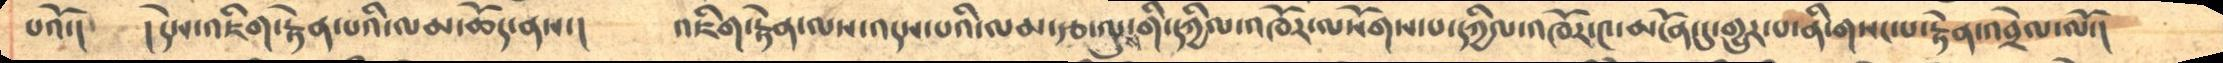པའོ་།   །དེས་འཇིག་རྟེན་པའི་ལམ་ཆོད་ནས་།    འཇིག་རྟེན་ལས་འདས་པའི་ལམ་རྩ་ལུས་གི་དཀྱིལ་འཁོར་ལ་སོགས་པ་དཀྱིལ་འཁོར་༤་མངོན་དུ་གྱུར་པ་ནི་གསང་པ་རྟེན་འབྲེལ་ལོ་།
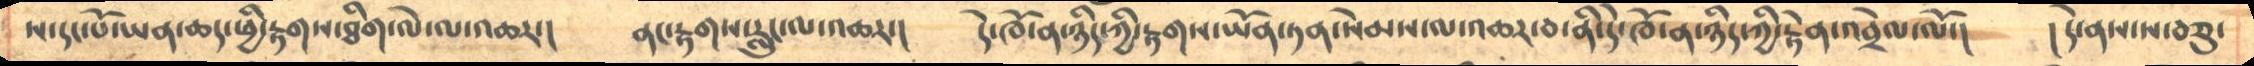ས་དང་པོ་ཡན་ཆད་ཕྱི་རྟགས་ཐིག་ལེ་མ་འཆར་།    ནང་རྟགས་རླུང་ལ་འཆར་།    དེ་ཁོ་ན་ཉིད་ཀྱི་རྟགས་ཡོན་ཏན་སེམས་ལ་འཆར་བ་ནི་དེ་ཁོ་ན་ཉིད་ཀྱི་རྟེན་འབྲེལ་ལོ་།   ། དེ་ནས་ས་བཅུ་
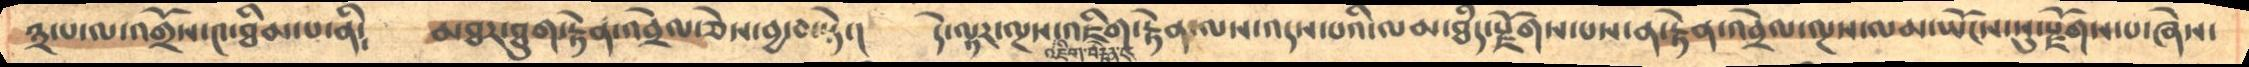༣་པ་ལ་འགྲོས་༤་ཐིམ་པ་ནི༴    མཐར་ཐུག་རྟེན་འབྲེལ་ཅེས་བྱ་བ་སྟེ་།    དེ་ལྟར་ལྔས་འཇིག་རྟེན་དང་འཇིག་རྟེན་ལས་འདས་པའི་ལམ་ཐཾད་རྫོགས་པས་ན་རྟེན་འབྲེལ་ལྔས་ལམ་ཡོངས་སུ་རྫོགས་པ་ཞེས་
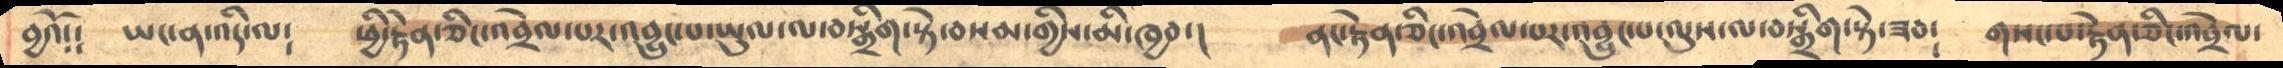བྱའོ༴༴    ཡང་ན་འདི་ལ༴   ཕྱི་རྟེན་ཅིང་འབྲེལ་པརའབྱུང་པ་ཡུལ་ལ་བསྒྲིག་སྟེ་བསམ་གྱིས་མི་ཁྱབ་།    ནང་རྟེན་ཅིང་འབྲེལ་པར་འབྱུང་པ་ལུས་ལ་བསྒྲིག་སྟེ་ཟབ༴   གསང་པ་རྟེན་ཅིང་འབྲེལ་
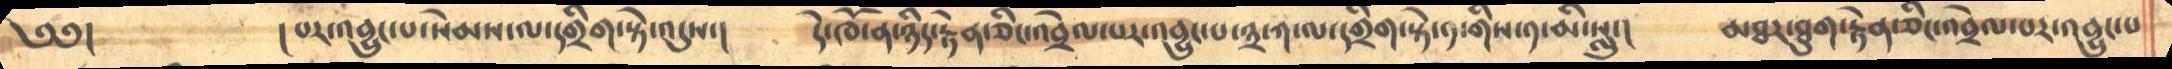༄༅།       །པར་འབྱུང་པ་སེམས་ལ་དགྲིག་སྟེ་འདུས་།    དེ་ཁོ་ན་ཉིད་རྟེན་ཅིང་འབྲེལ་པར་འབྱུང་པ་༣་ཀ་ལ་དགྲིག་སྟེ་༡་གིས་༡་མི་སླུ་།    མཐར་ཐུག་རྟེན་ཅིང་འབྲེལ་པརའབྱུང་པ
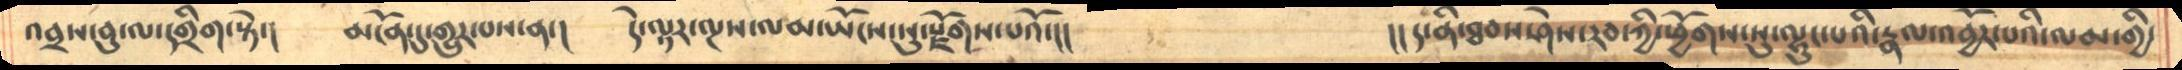འབྲས་བུ་ལ་དགྲིག་སྟེ་།   མངོན་དུ་གྱུར་པས་ན་།    དེ་ལྟར་ལྔས་ལམ་ཡོངས་སུ་སྫོགས་པའོ་།།            །།ད་ནི་ཐབས་ཤེས་རབ་ཀྱི་ཕྱོགས་སུ་ལྷུང་པའི་རྣལ་འབྱོར་པའི་ལམ་གྱི་
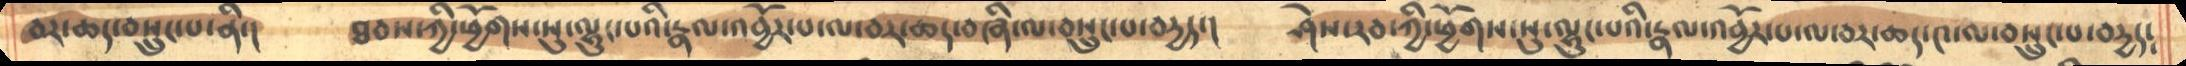བར་ཆད་བསྲུང་པ་ནི་།    ཐབས་ཀྱི་ཕྱོགས་སུ་ལྷུང་པའི་རྣལ་འབྱོར་པ་ལ་བར་ཆད་བཞི་ལ་བསྲུང་པ་བདྱད་།    ཤེས་རབ་ཀྱི་ཕྱོགས་སུ་ལྷུང་པའི་རྣལ་འབྱོར་པ་ལ་བར་ཆད་༤་ལ་བསྲུང་པ་བདྱད༴
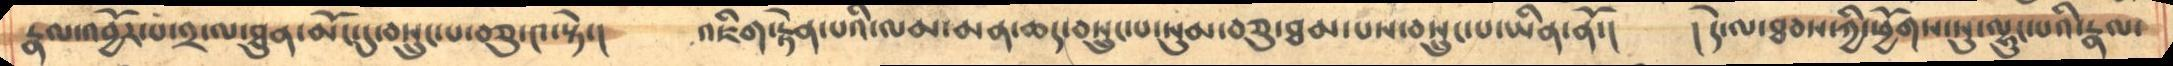རྣལ་འབྱོར་པ་༢་ལ་ཐུན་མོང་དུ་བསྲུང་པ་བཅུ་༤་སྟེ་།    འཇིག་རྟེན་པའི་ལམ་མན་ཆད་བསྲུང་པ་སུམ་བཅུ་ཐམ་པས་བསྲུང་པ་ཡིན་ནོ་།   །དེ་ལ་ཐབས་ཀྱི་ཕྱོགས་སུ་ལྷུང་པའི་རྣལ་
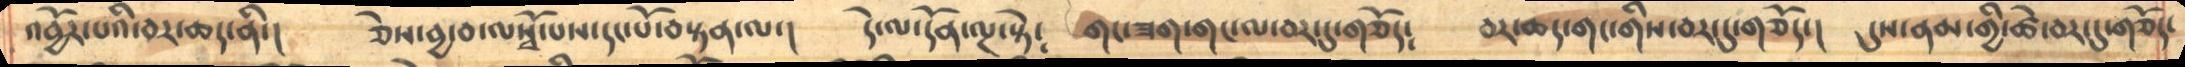འབྱོར་པའི་བར་ཆད་ནི་།    ཅེས་བྱ་བ་ལསྭོ་པས་དང་པོ་བསྟན་ལ་།     དེ་ལ་དོན་ལྔ་སྟེ༴   གང་ཟག་གང་ལ་བར་དུ་གཅོད༴    བར་ཆད་གང་གིས་བར་དུ་གཅོད་།   དུས་ནམ་གྱི་ཚེ་བར་དུ་གཅོད་
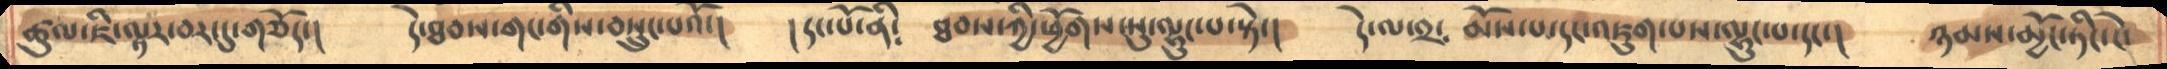ཚུལ་ཇི་ལྟར་བར་དུ་གཅོད་།      དེ་ཐབས་གང་གིས་བསྲུང་པའོ་།    །དང་པོ་ནི༴    ཐབས་ཀྱི་ཕྱོགས་སུ་ལྷུང་པ་སྟེ་།    དེ་ལ་༢༴ མོས་པ་དང་འཇུག་པས་ལྷུང་པ་དང་།   ཉམས་མྱོང་ཏིང་ངེ་
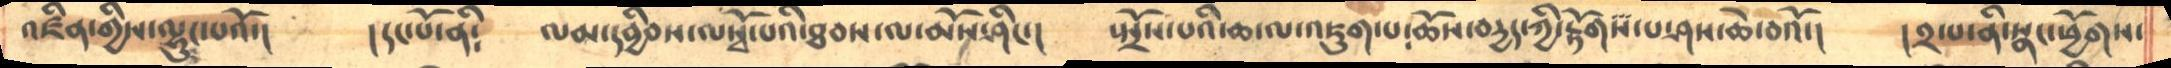འཛིན་གྱིས་ལྷུང་པའོ་།   །དང་པོ་ནི༴    ལམ་དབྱིབས་ལསྭོ་པའི་ཐབས་ལ་མོས་ཤིང་།     སྤྲོས་པའི་ཆ་ལ་འཇུག་པ་ཆོས་བདྱད་ཀྱི་རྟོགས་པ་ཤས་ཆེ་བའོ་།    །༢་པ་ནི་སྣང་ཕྱོགས་
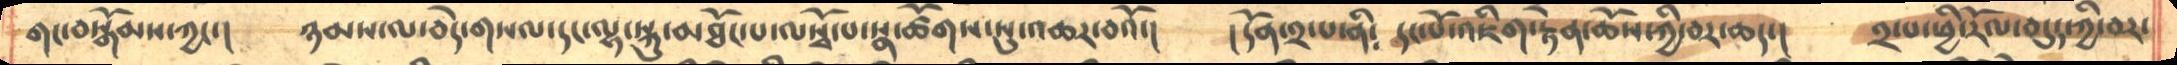གང་བསྒོམས་ཀྱང་།     ཉམས་ལ་བདེ་གསལ་དང་ལྷ་སྐུ་མཐོང་པ་ལསྭོ་པ་སྣ་ཚོགས་སུ་འཆར་བའོ་།   །དོན་༢་པ་ནི༴   དང་པོ་འཇིག་རྟེན་ཆོས་ཀྱི་བར་ཆད་།   ༢་པ་ཕྱི་རོལ་བདུད་ཀྱི་བར་
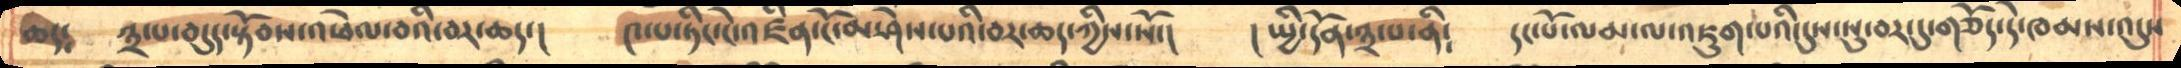ཆད༴  ༣་པ་བདུད་སྟོབས་འཕེལ་བའི་བར་ཆད་།     ༤་པ་ཏིང་ངེ་འཛིན་ངོ་མ་ཤེས་པའི་བར་ཆད་ཀྱིས་སོ་།    །སྤྱི་དོན་༣་པ་ནི༴   དང་པོ་ལམ་ལ་འཇུག་པའི་དུས་སུ་བར་དུ་གཅོད་དེ་ཁམས་འདུས
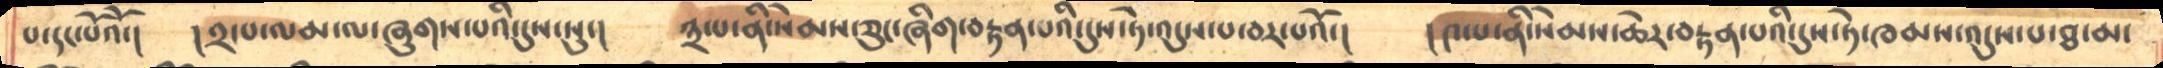པ་དང་པོའོ་།    །༢་པ་ལམ་ལ་ཞུགས་པའི་དུས་སུ་།    ༣་པ་ནི་སེམས་ཅུང་ཞིག་བརྟན་པའི་དུས་ཏེ་འདུས་པ་བར་པའོ་།    །༤་པ་ནི་སེམས་ཆེར་བརྟན་པའི་དུས་ཏེ་ཁམས་འདུས་པ་ཐ་མ་
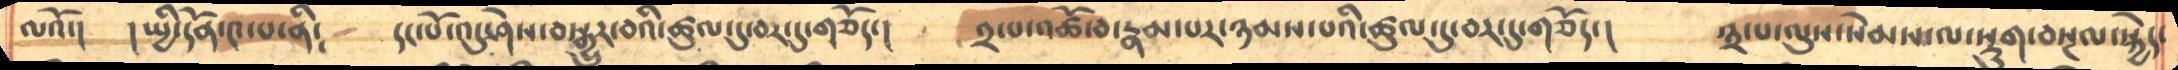ལའོ་།    །སྤྱི་དོན་༤་པ་ནི༴   དང་པོ་འདུ་ཤེས་བསྒྱུར་བའི་ཚུལ་དུ་བར་དུ་གཅོད་།   ༢་པ་འཚོ་བ་རྣམ་པར་ཉམས་པའི་ཚུལ་དུ་བར་དུ་གཅོད་།    ༣་པ་ལུས་སེམས་ལ་སྡུག་བསྔལ་སྐྱེད་
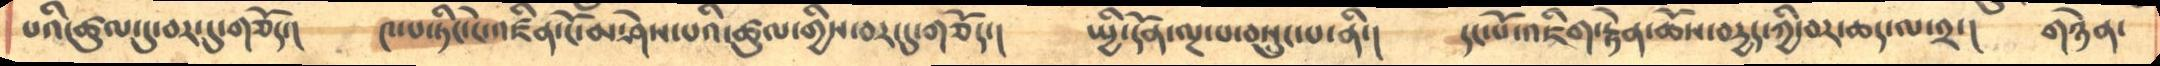པའི་ཚུལ་དུ་བར་དུ་གཅོད་།   ༤་པ་ཏིང་ངེ་འཛིན་ངོ་མ་ཤེས་པའི་ཚུལ་གྱིས་བར་དུ་གཅོད་།   སྤྱི་དོན་ལྔ་པ་བསྲུང་པ་ནི་།   དང་པོ་འཇིག་རྟེན་ཆོས་བདྱད་ཀྱི་བར་ཆད་ལ་༢་།   གཉེན་
